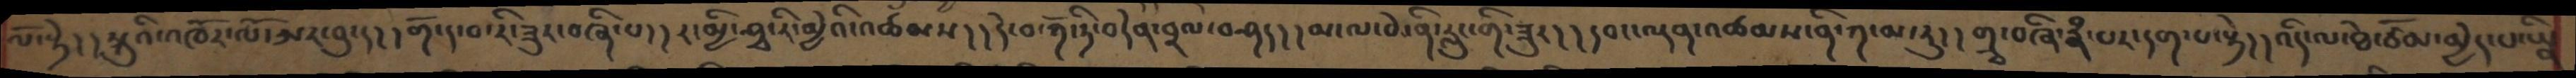ལོ་སྟེ། །སྐུའི་འཁོར་ལོ་ཨར་བུ་ད། །གོ་ད་བ་རི་ཟུར་བཞི་པ། །ར་མྱི་ཤྭ་རི་མྱེའི་འཚམས། །དེ་བ་ཀོ་ཏི་བདེན་བྲལ་བཤད། །མ་ལ་བེ་ནི་རླུང་གི་ཟུར། །དབང་ལྡན་འཚམས་ནི་ཀ་མ་རུ། །གྲྭ་བཞི་རྣཾ་པར་དག་པ་སྟེ། །འདི་ལ་ཐེ་ཙོམ་མྱེད་པ་ཡིན
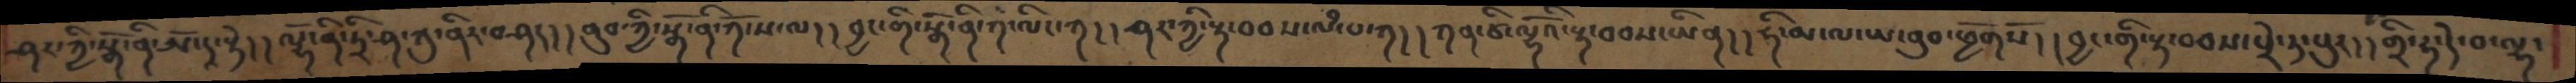ཤར་ཀྱི་སྒོ་ནི་ཨོ་དཱ་སྟེ། །ལྷོ་ནི་ཏྲི་ཤ་ཀུ་ནིར་བཤད། ནུབ་ཀྱི་སྒོ་ནི་ཀོ་ས་ལ། །བྱང་གི་སྒོ་ནི་ཀ་ལིང་ཀ། །ཤར་ཀྱི་རྟ་བབས་ལཾ་པ་ཀ། །ཀན་ཙི་ལྷོའི་རྟ་བབས་ཡིན། །ཧི་མ་ལ་ཡ་ནུབ་ཕྱོགསོ། །བྱང་གི་རྟ་བབས་པྲེ་ཏ་པུར། །གྲི་ཧ་དེ་བ་ལྷ་
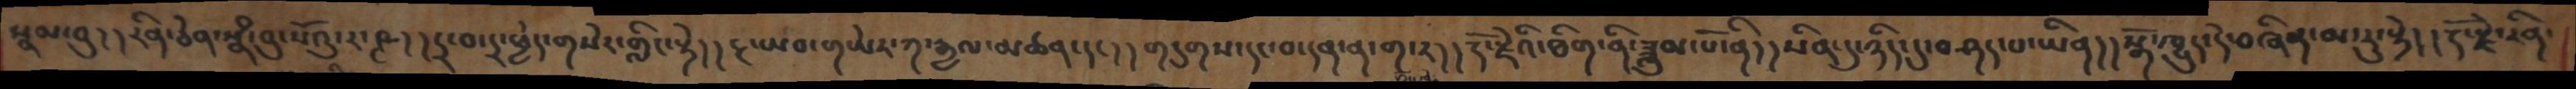སྣམ་བུ། །རིན་ཅེན་སྣཾ་བུ་སོའུ་ར་ཥྚ། །དྲ་བ་དྲ་ཕྱེད་གསེར་གླིང་སྟེ། །རྔ་ཡབ་གཡེར་ཀ་རྒྱལ་མཚན་དང། །གདུགས་དང་བ་དན་ན་ག་ར། རྡོ་རྗེའི་ཐིག་ནི་ཟླུམ་པོ་ནི།།སིན་དུ་ཉིད་དུ་བཤད་པ་ཡིན།  །སྒོ་ཁྱུད་དེ་བཞིན་མ་རུ་སྟེ། །རྡོ་རྗེ་རིན་
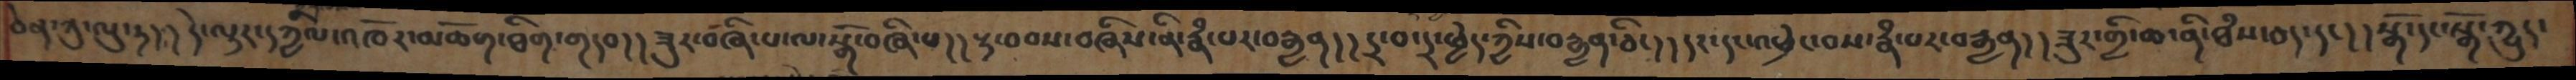ཅེན་ཀུ་ལུ་ཏ། །དེ་ལྟར་དཀྱིལ་འཁོར་མཆོག་ཐིག་གདབ། །ཟུར་བཞི་པ་ལ་སྒོ་བཞི་པ། །རྟ་བབས་བཞིས་ནི་རྣཾ་པར་བརྒྱན། །དྲ་བ་དྲ་ཕྱེད་ཀྱིས་བརྒྱན་ཅིང། །དར་དང་འཕྲེང་བས་རྣཾཔར་བརྒྱན། །ཟུར་གྱི་ཆ་ནི་ཐཾས་ཅད་དང་། སྒོ་དང་སྒོ་ཀྱུར་
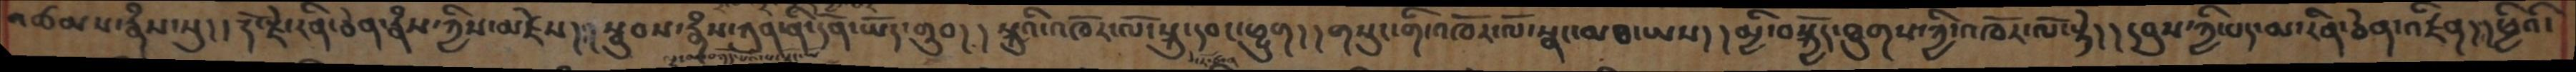འཚམས་རྣཾས་སུ། །རྡོ་རྗེ་རིན་ཅེན་རྣཾས་ཀྱིས་མཛེས། །སྦུབས་རྣཾས་ཀུན་ནི་དོན་ཡོད་གྲུབ། །སྐུའི་འཁོར་ལོ་སྐུ་དབང་ཕྱུག། །གསུང་གི་འཁོར་ལོ་སྣང་མཐ་ཡས། །མྱི་བསྐྱོད་ཐུགས་ཀྱི་འཁོར་ལོ་སྟེ། །དབུས་ཀྱི་པད་མ་རིན་ཅེན་འཛིན། །ཕྱིའི་
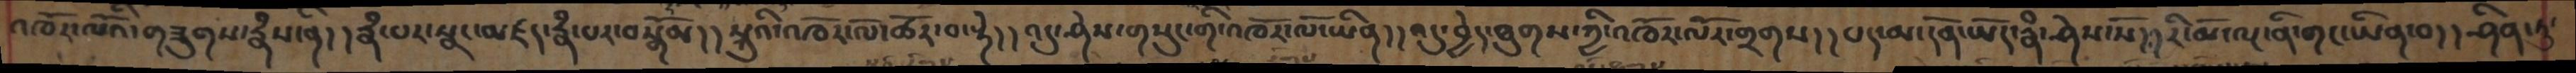འཁོར་ལོའི་གཟུགས་རྣཾས་ནི། །རྣཾ་པར་སྣང་མཛད་རྣཾ་པར་བསྒོམ། །སྐུའི་འཁོར་ལོ་ཚོར་བ་སྟེ། །འདུ་ཤེས་གསུང་གི་འཁོར་ལོ་ཡིན། །འདུ་བྱེད་ཐུགས་ཀྱི་འཁོར་ལོར་གྲགས། །པད་མ་དོན་ཡོད་རྣཾ་ཤེས་སོ། །རི་མོ་ལྔ་ནི་གང་ཡིན་བ། །ཤིན་ཏུ་
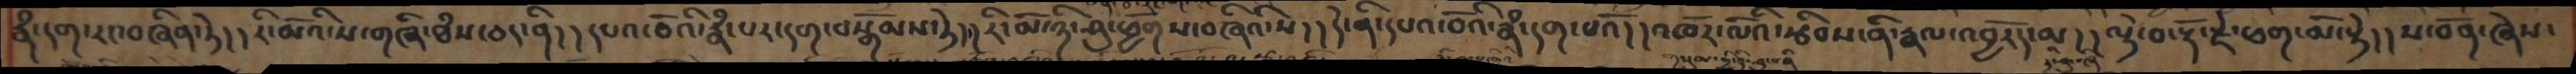རྣྃ་དག་རང་བཞིན་ཏེ། །རི་མོའི་ས་གཞི་ཐཾས་ཅད་ནི། །དཔའ་བོའི་རྣཾ་པར་དག་བསྒོམས་ཏེ། །རི་མོ་ཉི་ཤུ་ཕྱོགས་བཞིའི་ས། །དེ་ནི་དཔའ་བོའི་རྣཾ་དག་པའོ། །འཁོར་ལོའི་རྩིབས་ནི་རྣལ་འབྱོརད་མ། །ལྟེ་བ་རྡོ་རྗེ་ཕག་མོ་སྟེ། །ས་བོན་ཞེས་
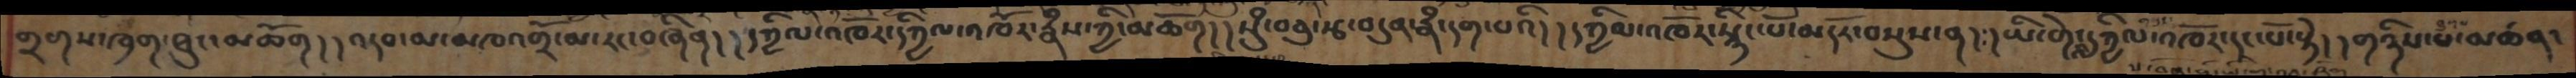གྲགས་ཁྲག་ཐུང་མཆོག། །འདབ་མ་མཁའགྲོ་མ་རང་བཞིན། །དཀྱིལ་འཁོར་དཀྱིལ་འཁོར་རྣཾས་ཀྱི་མཆོག། །སུཾ་བཅུ་རྩ་བདུན་རྣཾ་དག་པའི། །དཀྱིལ་འཁོར་སྙིང་པོ་མདོར་བསྡུས་ན། །ཡི་གེའི་དཀྱིལ་འཁོར་དང་པོ་སྟེ། །གཉིས་པ་མཚན་
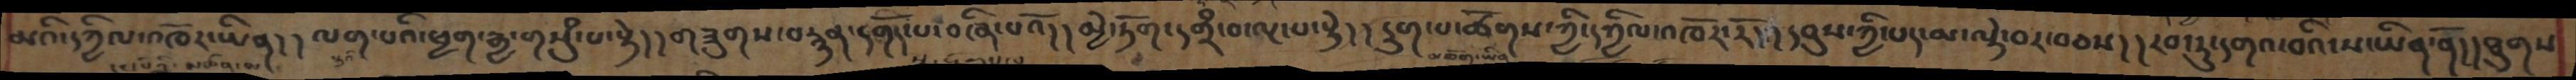མའི་དཀྱིལ་འཁོར་ཡིན། །ལག་པའི་ཕྱག་རྒྱ་གསུཾ་པ་སྟེ། །གཟུགས་བརྙན་དགོད་པ་བཞི་པའོ། །མྱེ་ཏོག་དགྲཾ་བ་ལྔ་པ་སྟེ། །དྲུག་པ་ཚོགས་ཀྱི་དཀྱིལ་འཁོར་རོ། །དབུས་ཀྱི་པད་མ་ལྟེ་བར་བཅས། །རབ་ཏུ་དགའ་བའི་ས་ཡིན་ནོ། །ཐུགས
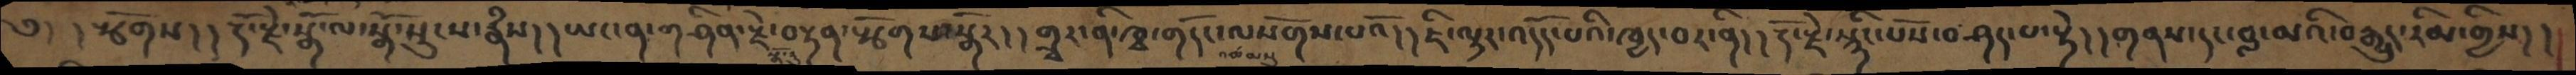༄། །རྩོགས། །རྡོ་རྗེ་སྒོ་ལ་སྒོ་སྲུངས་རྣཾས། །ཡང་ན་གཤིན་རྗེ་བསྟན་སྩོགས་སྒོར། །གྲྭར་ནི་ཁྭ་གདོང་ལསོགས་པའོ། །ཇི་ལྟར་འདོད་པའི་ཁྱད་བར་ནི། །རྡོ་རྗེ་སྙིང་པོས་བཤད་པ་སྟེ། །གནས་དང་བླ་མའི་བརྒྱུད་རིམ་གྱིས། །
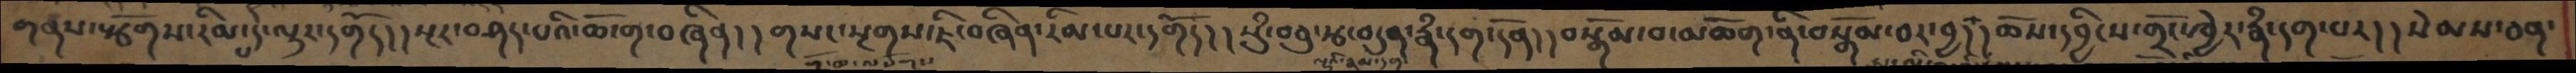གནས་སྩོགས་རིམ་པ་དེ་ལྟར་དགོད། །སྔར་བཤད་པའི་ཆོ་ག་བཞིན། །གསང་སྔགས་ཇི་བཞིན་རིམ་པར་དགོད། །སུཾ་བཅུ་རྩ་བདུན་རྣཾ་དག་དོན། །བསྒོམ་བ་མཆོག་ནི་བསྒོམ་བར་བྱ། །ཆོས་དབྱིངས་གྲོང་ཁྱེར་རྣཾ་དག་པར། །སེམས་ཅན་
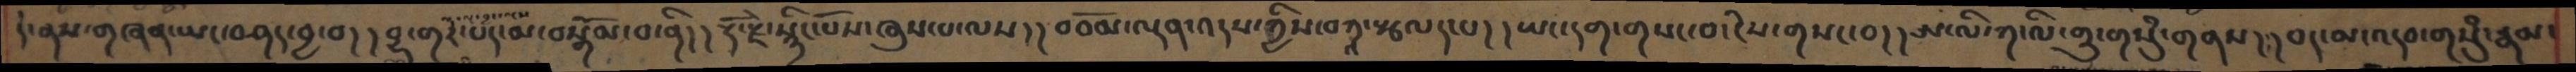དེ་ནས་གཞན་ཡང་བཤད་བྱ་བ། །བྷ་གར་པད་མ་བསྒོམ་པ་ནི། །རྡོ་རྗེ་སྙིང་པོས་ཞུས་པ་ལས། །བཅོམ་ལྡན་འདས་ཀྱིས་བཀའ་སྩལད་པ། །ཡང་དག་གསང་བ་ངེས་གསང་བ། །ཨ་ལི་ཀ་ལི་གྲུ་གསུཾ་གནས། །པད་མ་འདབ་གསུཾ་རྣམ་
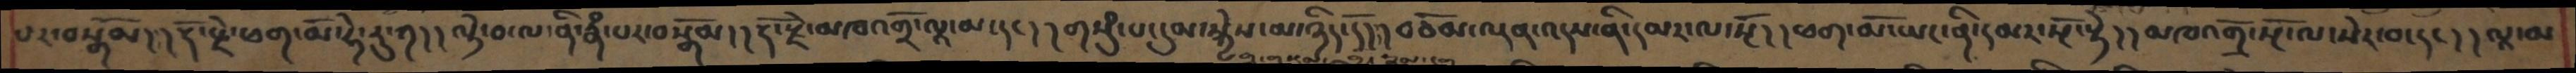པར་བསྒོམ། །རྡོ་རྗེ་ཕག་མོ་ཧེ་རུ་ཀ། །ལྟེ་བ་ལ་ནི་རྣཾ་པར་བསྒོམ། །རྡོ་རྗེ་མཁའགྲོ་ལཱ་མ་དང། །གསུཾ་པ་དུམ་སྐྱེས་མ་ཉིད་དོ། །བཅོམ་ལྡན་འདས་ནི་དམར་ལ་སྔོ། །ཕག་མོ་ཡང་ནི་དམར་སྔོ་སྟེ། །མཁའགྲོ་སྔོ་ལ་སེར་བ་དང། །ལཱ་མ
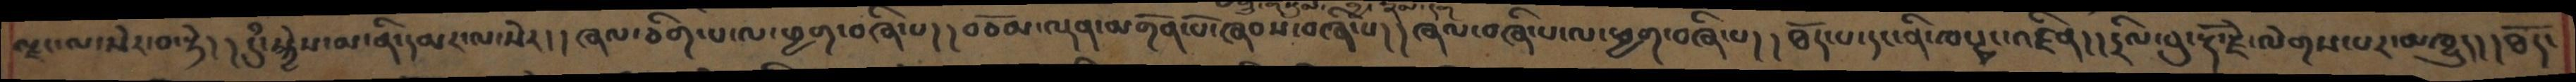ལྗང་ལ་སེར་བ་སྟེ། །དུཾ་སྐྱེས་མ་ནི་དམར་ལ་སེར། །ཞལ་ཅིག་པ་ལ་ཕྱག་བཞི་པ། །བཅོམ་ལྡན་མགོན་པོ་ཞབས་བཞི་པ། །ཞལ་བཞི་པ་ལ་ཕྱག་བཞི་པ། །ཐོད་པ་དང་ནི་ཁ་ཊྭང་འཛིན། །དྲིལ་བུ་རྡོ་རྗེ་ལེགས་པར་མཁྱུད། །ཐོད་
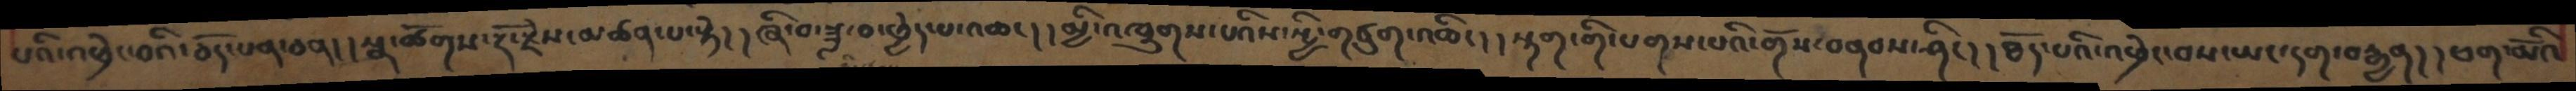པའི་འཕྲེང་བའི་ཅོད་པན་ཅན། །སྣ་ཚོགས་རྡོ་རྗེས་མཚན་པ་སྟེ། །ཞི་བ་ཟླ་བ་ཕྱེད་པ་འཆང། །མྱི་འཁྲུགས་པའིས་སྤྱི་གཙུག་འཆིང། །སྟག་གི་པགས་པའི་གོས་བནབས་ཤིང། །ཐོད་པའི་འཕྲེང་བས་ཡང་དག་བརྒྱན། །ཕག་མོའི
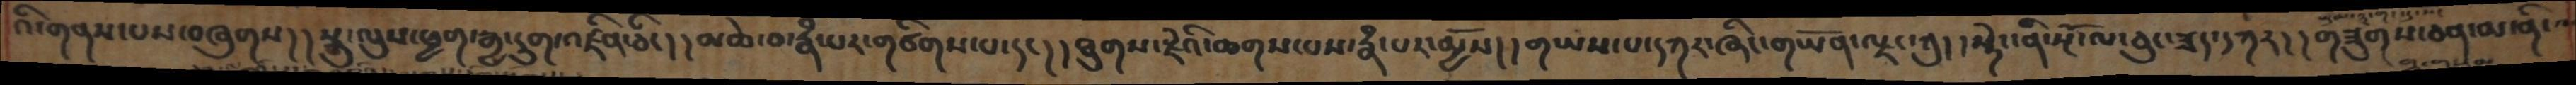འི་གནས་པས་བཞུགས། །སྐུ་ལུས་ཕྱག་རྒྱ་དྲུག་འཛིན་ཅིང། །མཆེ་བ་རྣཾ་པར་གཙིགས་པ་དང། །ཐུགས་རྗེའི་ཆགས་པས་རྣཾ་པར་མྱོས། །གཡས་པ་དཀར་ཞིང་གཡོན་ལྗང་ཀུ། །སྟེང་ནི་སྔོ་ལ་ཅུང་ཟད་དཀར། །གཟུགས་ཅན་མ་ནི་
